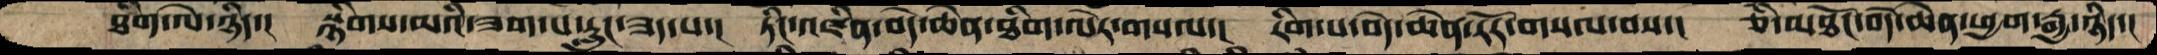ཐིག་ལེ་ཉིད་།  སྙིགས་མའི་ཟག་པ་རླུང་ཟད་པ་།  ཏིང་འཛིན་བདེ་ཆེན་ཐིག་ལེར་གསལ་།  རིག་པ་བདེ་ཆེན་རོར་གསལ་བས་།  ཅི་མཐོང་བདེ་ཆེན་ཕྱག་རྒྱ་ཉིད།
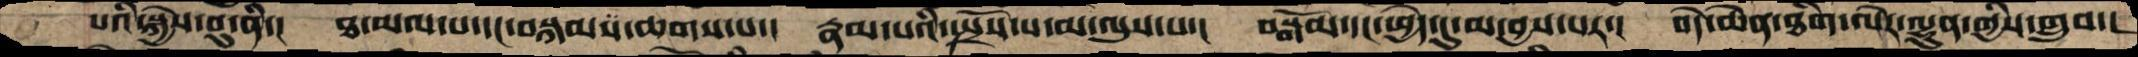པའི་སྐྱེས་བུ་ནི་།  ཐ་མལ་པ་དང་བསྐམས་ཆགས་པ་།  རྣམ་པའི་སྤྲོས་པ་མ་ལུས་པ་།  བསྒོམ་དང་ཕྱེད་དུ་མ་བྱས་པར་།  བདེ་ཆེན་ཐིག་ལེར་ལྷུན་གྱིས་གྲུབ་།
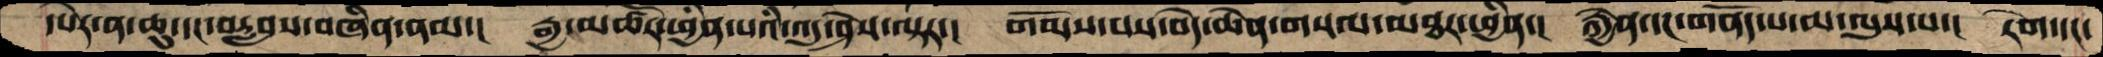དཔེར་ན་ཆུ་དང་བརླབས་བཞིན་ནམ་།   རྒྱ་མཚོར་ཕྱིན་པའི་འདུ་ཤེས་ལྟར་།  གོམས་པས་བདེ་ཆེན་གསལ་མཐར་ཕྱིར་།  རྐྱེན་དང་གནོད་པ་མ་ལུས་པ་།  རེག་དང་
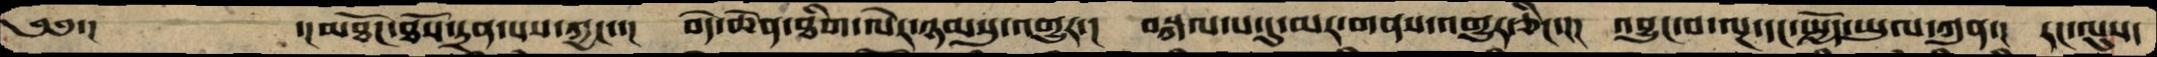༄༅་།    ་།མཐོང་ཐོས་དྲན་པས་ཀྱང་་།  བདེ་ཆེན་ཐིག་ལེར་ཉམསུ་འགྱུར་།  བསྐལ་པ་དུ་མར་གནས་འགྱུར་ཅིང་།།།  འབྱུང་བ་ལྔ་དང་སྤྱོད་ཡུལ་ཀུན་།  རང་ལུས་
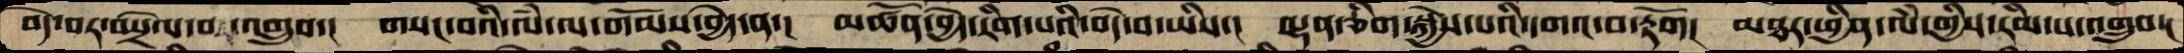བདེ་བར་བསྲེལ་བར་འགྲུབ་།  གསང་བའི་ལཾ་ལ་གོམས་བྱེད་ན་།  མཚོན་བྱེད་རིག་པའི་བདེ་བ་ཡིས་།  ལྷན་ཅིག་སྐྱེས་པའི་དགའ་བ་རྟོག།  མཐར་ཕྱིན་ལཾ་གྱིས་རིམ་པ་འགྲུབ་།
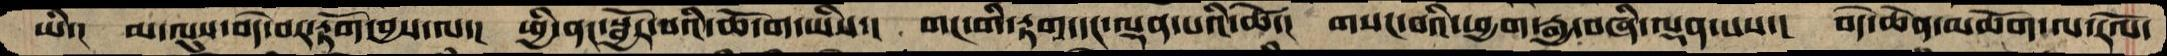ཡི་།  མ་ལུས་བདེ་བར་རྟོག་བྱས་ལ་།  ཕྱི་ནང་སྦྱོར་བའི་ཆོ་ག་ཡིས་།  གང་གི་རྟག་དང་ལྡན་པའི་ཚེ་།   གསང་བའི་ཕྱག་རྒྱ་བཞི་ལྡན་པས་།  བདེ་ཆེན་མཆོག་ལ་རོལ་
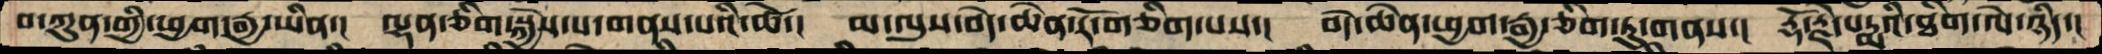བ་ཀུན་གྱི་ཕྱག་རྒྱ་ཡིན་།  ལྷན་ཅིག་སྐྱེས་པ་གནས་པའི་ཚེ་།  མ་ལུས་བདེ་ཆེན་རོ་གཅིག་པས་།  བདེ་ཆེན་ཕྱག་རྒྱ་ཅིག་ཏུ་གནས་།  རྡོ་རྗེ་པདྨའི་ཐིག་ལེ་ཉིད་།
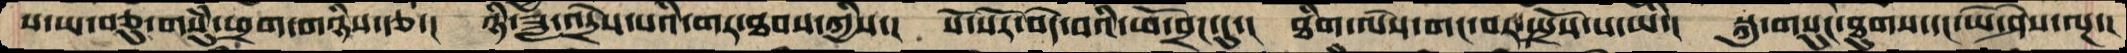ས་ཡ་བཅུ་གསུཾ་ཕྲག་གཉིས་རྩ་།  ཉི་ཟླ་འདྲེས་པའི་གར་ཐབས་ཀྱིས་།  སོ་སོར་བདེ་བའི་ཕོ་བྲང་དུ་།  ཐིག་ལེས་གང་བར་སྤྲོས་པ་ཡི་།  སྐུ་གསུང་ཐུགས་དང་ཡེ་ཤེས་ལྔ་།
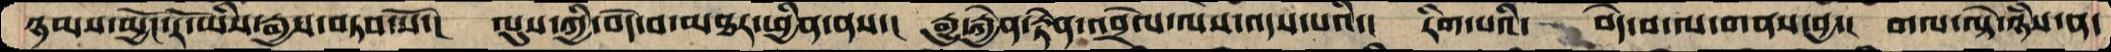ཉམས་མྱོང་རོ་ཡིས་རྒྱས་བཏབ་སོ་།  ལུས་ཀྱི་བདེ་བ་མཐར་ཕྱིན་ནས་།  རྒྱུ་རྐྱེན་རྟེན་འབྲེལ་ལས་འདས་པའི་།  རིག་པའི་  བདེ་བ་ལ་གནས་བྱ་།  གལ་ལྟེ་ཉཾས་ན་
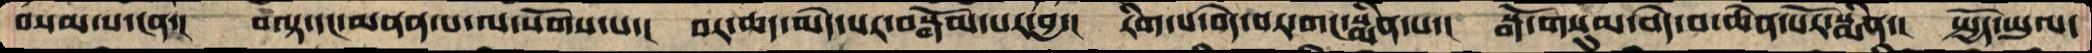བསམ་པ་ངན་།  བལྟ་དང་མནན་པ་ལ་སོགས་པ་།  བར་ཆད་མེད་པར་བསྒོམ་པར་བྱ་།  རིག་པ་བདེ་བར་གང་སྨིན་པ་།  སྒོ་གསུམ་བདེ་བ་ཆེན་པོར་སྨིན་།  སྤྱོད་ཡུལ་
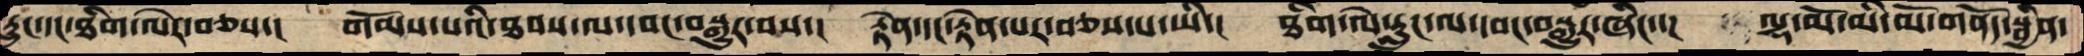རླུང་དང་ཐིག་ལེར་བཅས་།  གོམས་པའི་ཐབས་ལ་དབང་བསྒྱུར་བས་།  རྟེན་དང་རྟེན་པར་བཅས་པ་ཡི་།  ཐིག་ལེ་རླུང་ལ་དབང་བསྒྱུར་ཞིང་་།  ལྷ་མོ་མི་མོ་གནོད་སྦྱིན་
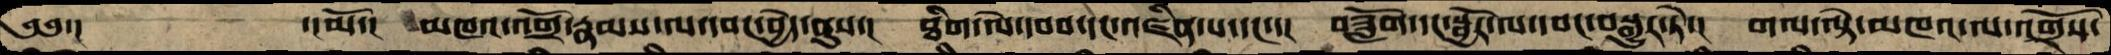༄༅་།     ་།མོ་།  མཁའ་འགྲོ་རྣམས་ལ་དབང་བྱེད་ནུས་།  ཐིག་ལེ་དབབ་དང་འཛིན་པ་དང་་།  བཟློག་དང་སྦྱོར་ལ་དབང་བསྒྱུར་ཏེ་།  གལ་ལྟེ་མཁའ་ལ་འགྲོས་
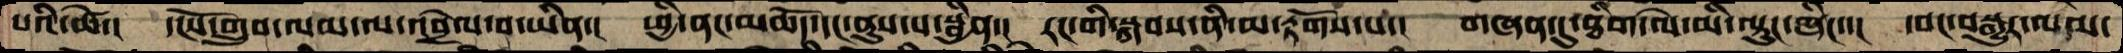པའི་ཚེ་།  དངོས་གྲུབ་ལམ་ལ་འབྲེལ་བ་ཡིན་།  ཕྱི་ནང་མཆོད་དང་ནུས་པ་སྦྱིན་།  རང་གི་སྐབས་ནི་མ་རྟོགས་པ་།  གཞན་དུ་ཐིག་ལེ་མི་ལྟུང་ཞིང་་།  དབང་བསྒྱུར་ལམ་
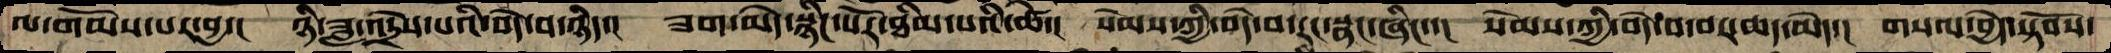ལ་གོམས་པར་བྱ་།  ཉི་ཟླ་འདྲེས་པའི་བདེ་བ་ཉིད་།  ཟག་མེད་སྙིང་པོར་ཐིམ་པའི་ཚེ་།  སེམས་ཀྱི་བདེ་བ་རང་སྣང་ཞིང་་།  སེམས་ཀྱི་བདེ་བ་བར་ཆད་མེད་།  གསལ་བྱེད་སྟོབས་
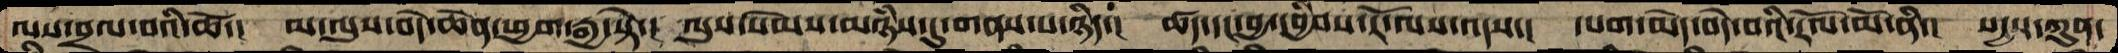ལས་བྲལ་བའི་ཚེ་།  མ་ལུས་བདེ་ཆེན་ཕྱག་རྒྱ་སྟེ་།  ལུས་སེམས་མཉཾས་དུ་གནས་པ་ཉིད་།  ཚད་དང་བྱ་དབྱིབས་རོ་ལས་འདས་།  དཔག་མེད་བདེ་བའི་རོལ་མོ་ནི་།  སདྱས་ཀུན་
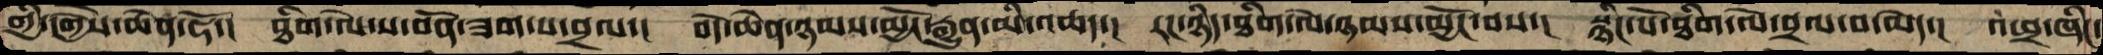གྱི་དགྱེས་ཆེན་ཧོ་།  ཐིག་ལེ་ས་བོན་ཟག་པ་བྲལ་།  བདེ་ཆེན་ཉམས་མྱོང་རྒྱུན་མི་འཆད་།  རང་ཉིད་ཐིག་ལེ་ཉམས་མྱོང་བས་།  སྙིང་པོ་ཐིག་ལེ་བྲལ་བ་མེད་།  འཕྲ་ཞིང་
